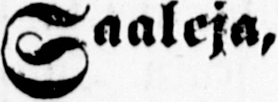saaleja,
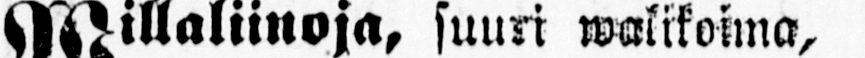Willaliinoja suuri walikoima,
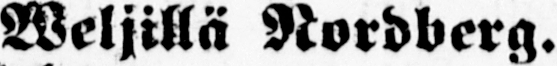Weljillä Nordberg.
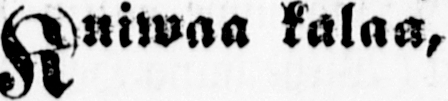Kuiwaa kalaa,
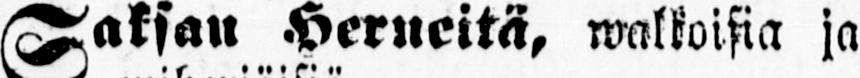Saksan Herneitä, walkoisia ja
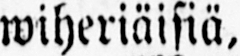wiheriäisiä.
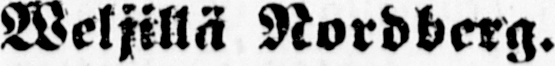Weljillä Nordberg.
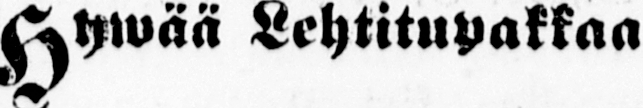Hywää Lehtitupakkaa
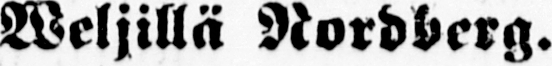Weljillä Nordberg.
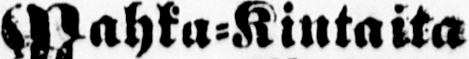Nahka-Kintaita
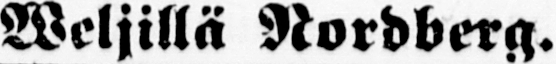Weljillä Nordberg.
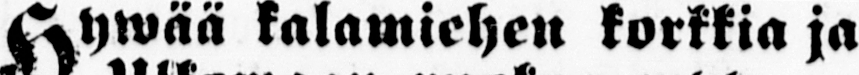Hywää kalamiehen korkkia ja
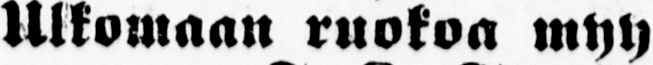Ulkomaan ruokoa myy
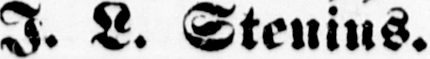J. L. Stenius.
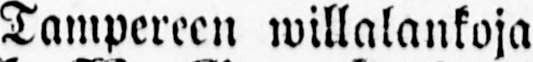Tampereen willalankoja
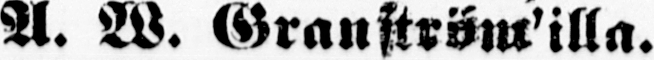A. W. Granström'illa.
